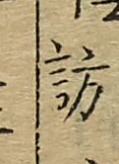訪
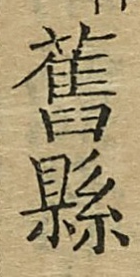舊縣
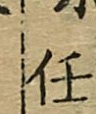任
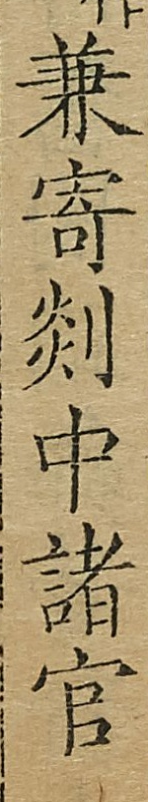兼寄剡中諸官
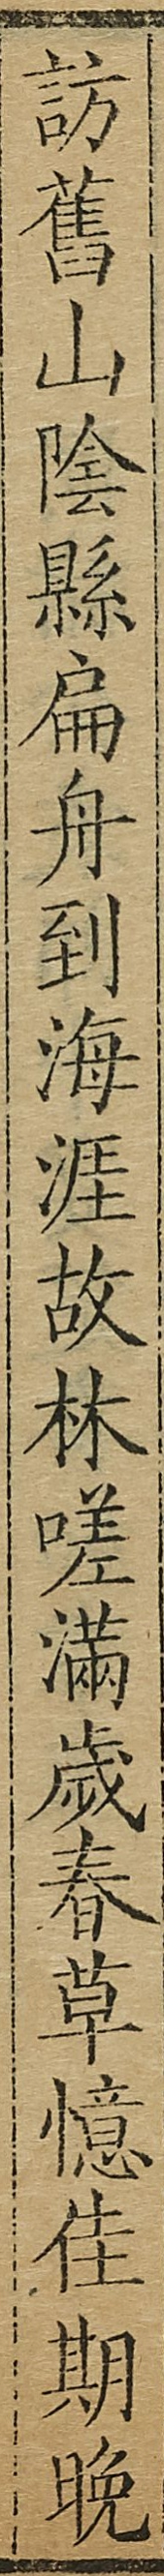訪舊山陰縣扁舟到海涯故林嗟滿歲春草憶佳期晚
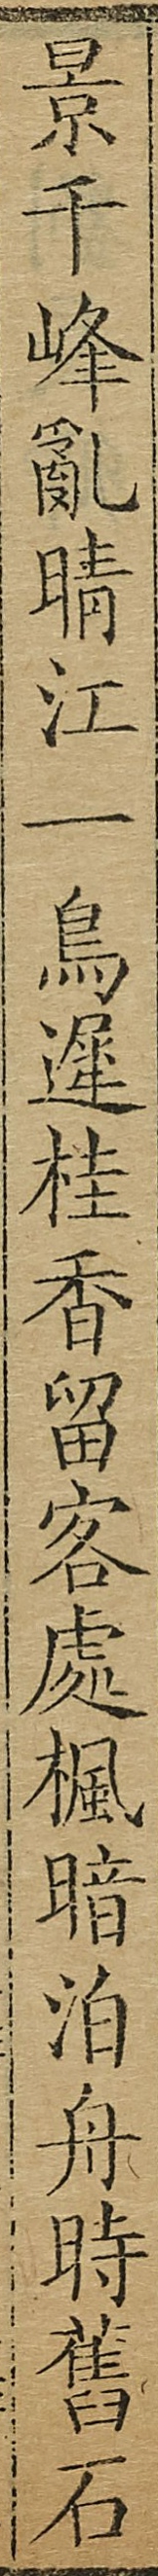景千峰亂晴江一鳥遲桂香留客處楓暗泊舟時舊石
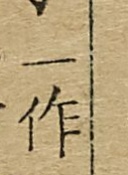一作
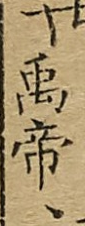禹帝
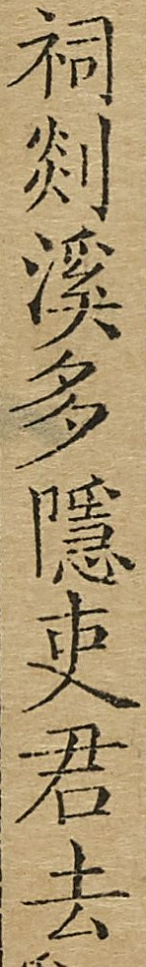祠剡溪多隱吏君去
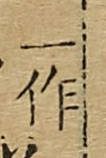一作
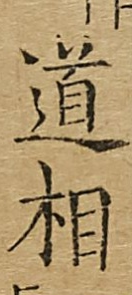道相
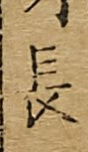長
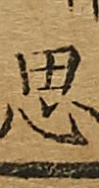思
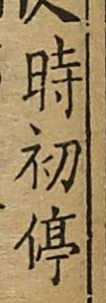時初停
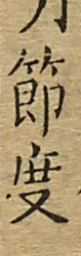節度
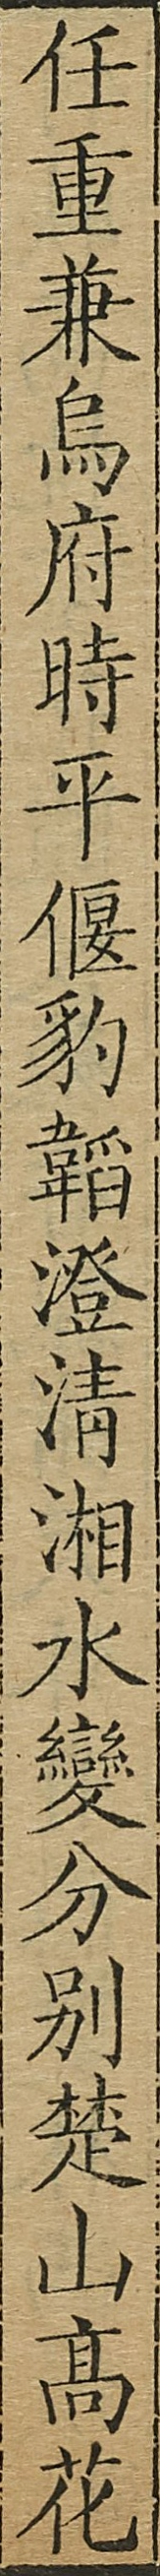任重兼烏府時平偃豹韜澄清湘水變分別楚山高花
